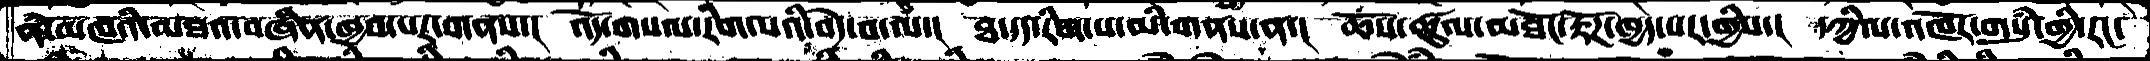ནཾ་མཁའི་མཐའ་བཞིན་ཁྱབ་པར་གནས་།  འོད་གསལ་རིག་པའི་བདེ་བ་ལ་།  ཐ་དད་རིག་པ་མི་གནས་ན་།  ཆོས་ཚུལ་མཐོང་རྟོཌ་ཁྱད་པར་གྱིས་།  དཀྱིལ་འཁོར་གསུཾ་གྱི་རང་
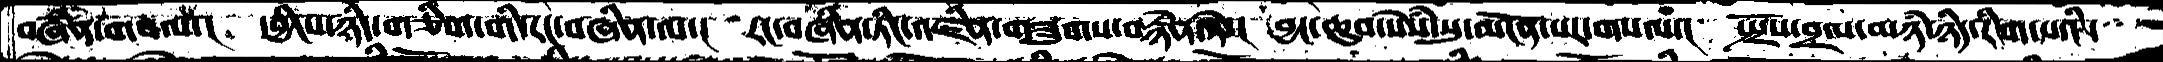བཞིན་གསལ་།  དབྱིངས་ཉིད་གཅིག་གི་རང་བཞིན་ལ་།  རང་བཞིན་ཏིང་འཛིན་གཟུགས་བརྙེན་སྟེ་།  བྱང་ཆུབ་སེཾས་སུ་མངོན་པར་གསལ་།  སྤྲོས་བྲལ་མཉཾ་ཉིད་རིག་པའི་
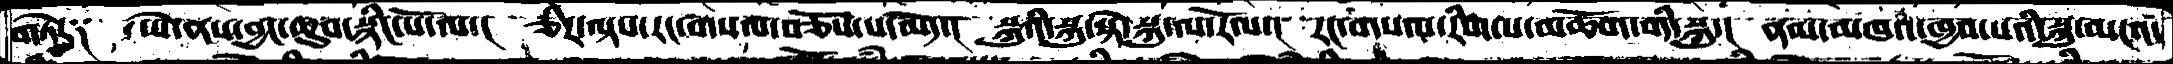གཏེར༑  ཡེ་ནས་བྱང་ཆུབ་སྙིང་པོ་ལ་།  ཅིར་ལྟས་རང་གསལ་བཅོས་པ་མོད་།  སྐུའི་སྐུ་སྟེ་སྐུ་ལ་རོལ་།  རང་གསལ་རིག་པ་མཆོག་གི་སྐུ་།  ནམ་མཁའ་ཁྱབ་པའི་སྐུ་མངའ་
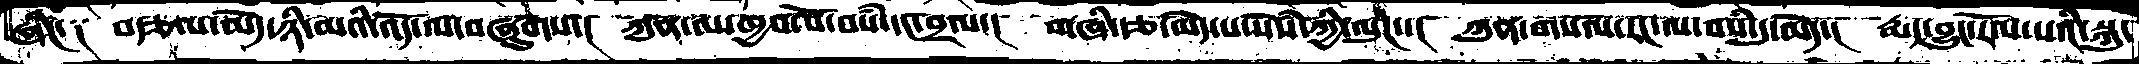ཞིང་༑  བརྩལ་མེད་ཉི་མའི་འོད་ལ་བཞུགས་།  ཀུན་ལ་ཁྱབ་པོ་བསཾ་དང་བྲལ་།  གཞི་རྩ་མེད་པ་སེཾས་ཀྱི་ལུང་་།  ཀུན་གསལ་རང་ལ་བསཾ་དུ་མེད་།  རྨད་བྱུང་རོལ་པའི་སྐུ་
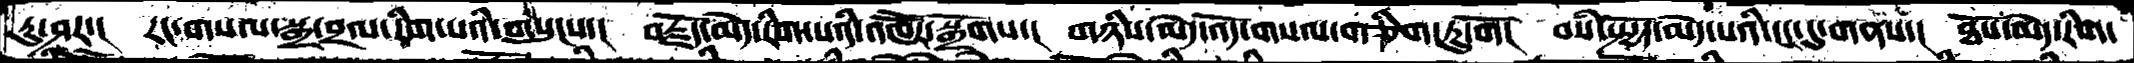རུ་ཤར་།  རང་གསལ་སྒྲ་བྲལ་རིག་པའི་གསུངས་།  བརྗོད་མེད་རིག་པའི་འཁཽར་སྒྲོགས་།  གཉིས་མེད་འོད་གསལ་གཅིག་ཏུ་གོ།  བསཾ་སྤྱོད་མེད་པའི་ངང་དུ་གནས་།  ཐོས་མེད་རིག་
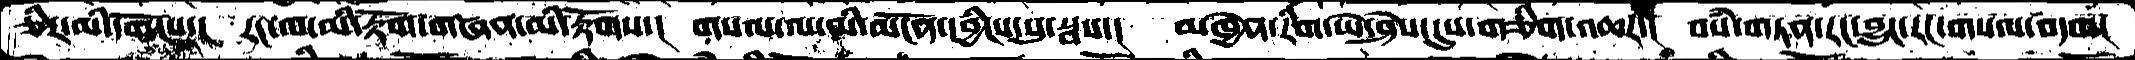ཅིར་མི་དགོངས་།  རང་ལ་མི་རྟོག་གཞན་མི་རྟོགས་།  གསལ་ལ་མི་མངོན་དབྱིངས་སུ་སྦས་།  མཁྱེན་རིག་ཡེ་ཤེས་དུས་གཅིག་འཆར་།  བསཾ་གཏན་རང་བྱུང་རང་གསལ་བདག།
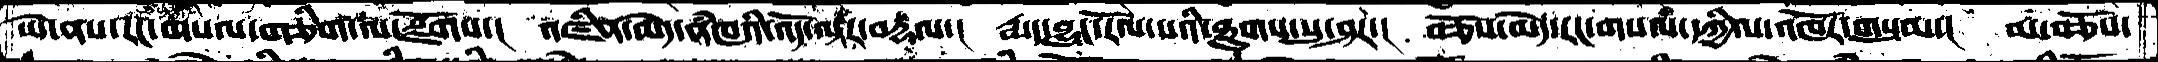ཡེ་ནས་རང་གསལ་གཅིག་ལ་སྫོགས་།  འཛིན་མེད་མཾཁའི་འོད་ལྟར་བརྡལ་།  རྨད་བྱུང་རོལ་པའི་ཐུགས་སུ་ཤར་།  བཅོས་མེད་རང་གསལ་དཀྱིལ་འཁོར་གསུམ་།  མ་བཅོས་
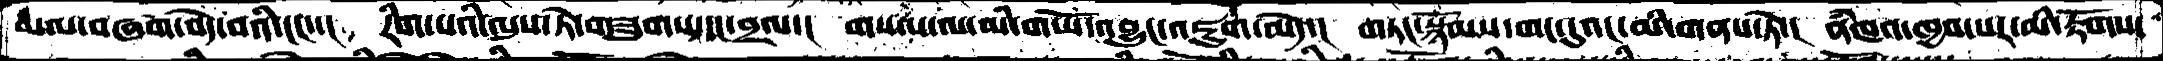མལ་བཞག་བདེ་བའི་ངང་་།  རིག་པའི་ལུས་ཏེ་གཟུགས་དང་བྲལ་།  གསལ་ལ་མི་གཡོ་འབྱུང་འཇུག་མེད་།  གཏང་སྙོམས་གང་དུའང་མི་གནས་ཏེ་།  ནཾཁའ་ཁྱབ་པར་མི་རྟོགས་
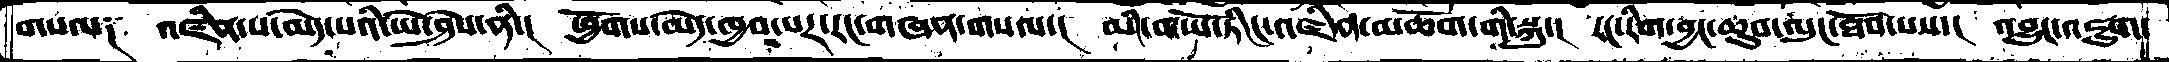གསལ༑  འཛིན་པ་མེད་པའི་ཡེ་ཤེས་ནི།  ཕྱོགས་མེད་ཁྱབ་པར་རང་གཞན་གསལ་།  མི་གཡོ་ཏིང་འཛིན་མཆོག་གི་སྐུ་།  རང་རིག་བྱང་ཆུབ་ལུང་ཐོབ་པས་།  འབྱུང་འཇུག་
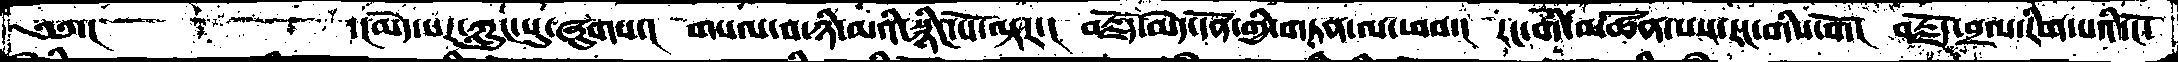༄༅་།        ་།མེད་པར་ཀླུང་སུ་ཞུགས་།  གསལ་བ་ཉི་མའི་སྙིང་པོ་ལྟར་།  བརྗོད་མེད་དོན་གྱི་གཏན་ལ་ཕབ་།  རང་གི་མཚོན་པས་རང་གིས་གོ་།  བརྗོད་བྲལ་རིག་པའི་ངོ་
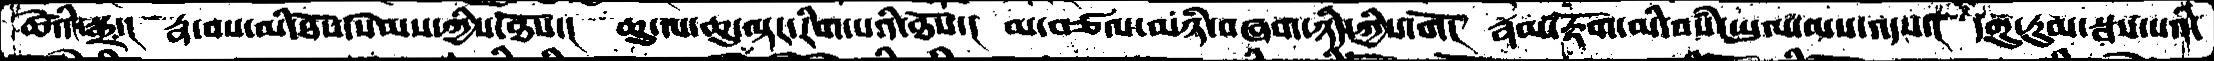ཚེའི་སྒྲ་།  རྣ་བས་མི་ཐོས་སེམས་ཀྱིས་ཐོས་།  ཆུ་ལ་ཆུ་ལྟར་རིག་པའི་ཐོས་།  མ་བཙལ་མཉཾ་བཞག་ཉིད་ཀྱིས་གོ།  རྣམ་རྟོག་མི་བསཾ་ཡུལ་ལས་འདས་།  དགུ་རུམ་སྦས་པའི་
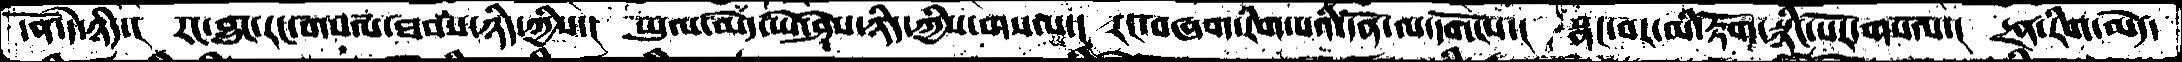དོན་དེ་ཉིད་།  རང་བྱུང་རང་གསལ་ཐབས་ཉིད་ཀྱིས་།   ཡུལ་མེད་ཡེ་ཤེས་ཉིད་ཀྱིས་གསལ་།  རང་བཞག་རིག་པའི་དོན་ལ་དགོངས་།  སྣང་བར་མི་རྟོག་སྙིང་པོར་གསལ་།  དྲན་རིག་མེད་
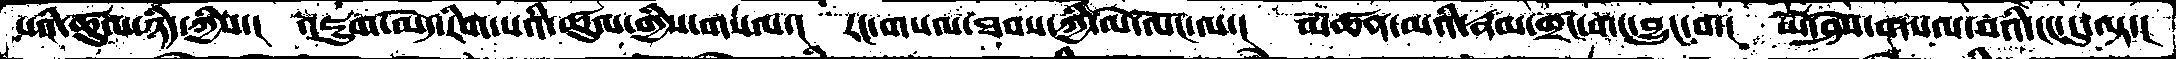པའི་ཚུལ་ཉིད་ཀྱིས་།  འཇུག་མེད་རིག་པའི་ཚུལ་གྱིས་གསལ་།  རང་གསལ་ཐབས་ཀྱི་མེ་ལོང་ལ་།  མཚན་མའི་རྣམ་གྲང་གང་བྱུང་བ་།  ཡེ་ཤེས་གསལ་བའི་ངང་དུ་ལྟ་།
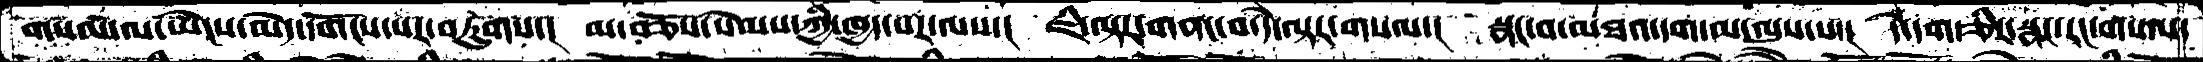གསལ་ལ་ཡེངས་མེད་དགོངས་པར་བཏུགས་།  མ་བཅོས་སེམས་ཀྱི་ཁྱད་པར་ལས་།  ཇི་ལྟར་གནང་བ་དེ་ལྟར་གསལ་།  སྣང་བ་མཐའ་དག་མ་ལུས་པ་།  དེ་དག་ཅིར་སྣང་རང་གསལ་
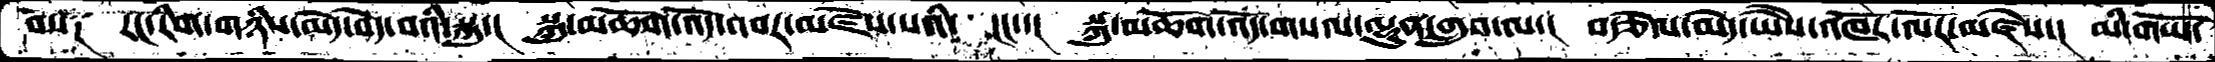བས༑  རང་རིག་གཉིས་མེད་བདེ་བའི་སྐུ་།  སྐུ་མཆོག་འོད་འབར་མཛེས་པའི་ ངང་་།  སྐུ་མཆོག་འོད་གསལ་ལྷུན་གྲུབ་ལ་།  བརྩོལ་མེད་ཡཻས་འཁོར་ལོར་མཛེས་།  མི་གཡོ་
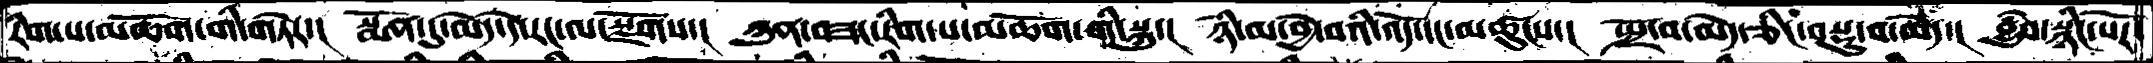རིག་པ་མཆོག་གི་གཏེར་།   སྨོན་དུ་མེད་དེ་རང་ལ་སྫོགས་།  ཀུན་བཟང་རིག་པ་མཆོག་གི་སྐུ་།  ཉི་མ་བྱེ་བའི་འོད་དང་མཚུངས་།  སྤྲོ་བ་མེད་ཅིང་བསྡུ་བ་མེད་།  བྱུཾབ་སྙིང་པོར་
